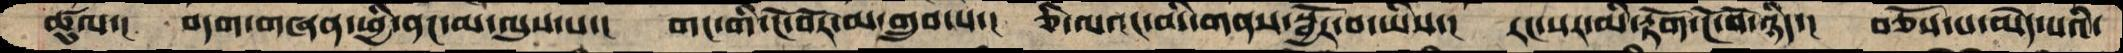ཚུལ་།  བདག་གཞན་ཕྱི་ནང་མ་ལུས་པ་།  གང་གི་ངོ་བོར་མ་གྲུབ་པ་། ཅི་ལའང་མི་གནས་སྦྱོར་བ་ཡིས་།  རང་སར་མི་རྟོག་ངོ་བོ་ཉིད་།  བཅོས་པ་མེད་པའི་
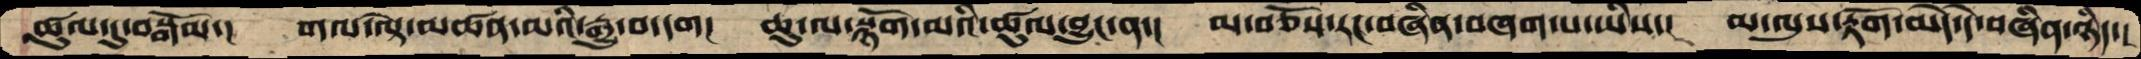ཚུལ་དུ་བསྒོམ་།  གལ་ལྟེ་མཚན་མའི་རྒྱུ་བ་དག།  ཆུ་ལ་སྙོག་མའི་ཚུལ་བྱུང་ན་།  མ་བཅོས་རང་བཞིན་བཞག་པ་ཡིས་།  མ་ལུས་རྟོག་མེད་དེ་བཞིན་ཉིད་།
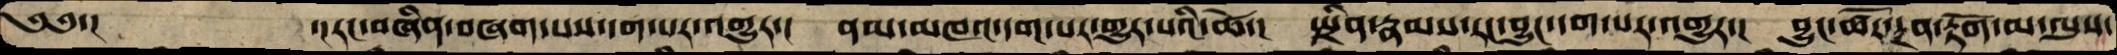༄༅་།         ་།རང་བཞིན་བཞག་པས་དག་པར་འགྱུར་།  ནམ་མཁའ་དག་པར་གྱུར་པའི་ཚེ་།  སྤྲིན་རྣམས་རང་བྱུང་དག་པར་འགྱུར་།  བྱུང་ཚོར་དྲན་རྟོག་མ་ལུས་
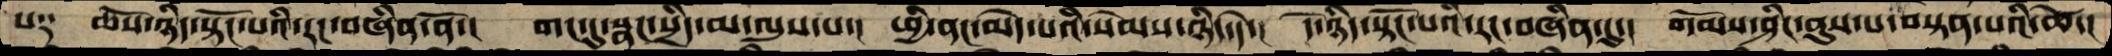པ༑  ཆོས་ཉིད་སྟོང་པའི་རང་བཞིན་ནོ་།  གང་དུ་སྣད་སྲིད་མ་ལུས་པ་།  ཕྱི་ནང་མེད་པའི་སེམས་ཉིད་དེ་།  དེ་ཉིད་སྟོང་པའི་རང་བཞིན་དུ་།  གོམས་ཤིང་ནུས་པ་བསྟན་པའི་ཚེ།
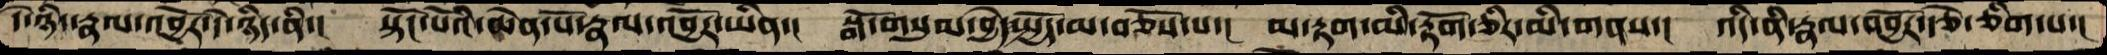དེ་ཉིད་རྣལ་འབྱོར་དེ་ཉིད་ནི་།  སྟོང་པོའི་ཆེན་པོ་རྣལ་འབྱོར་ཡིན་།  སྒོ་གསུམ་བྱེདསྤྱོད་མ་བཅོས་པ་།  མ་རྟག་མི་རྟོག་ཅིར་མི་གནས་།  འདི་ནི་རྣལ་འབྱོར་རྩེ་ཅིག་པ་།
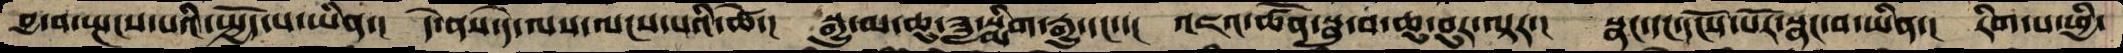བྱ་བ་སྤངས་པའི་སྤྱོད་པ་ཡིན་།  དེ་ནས་དེ་ལས་ལངས་པའི་ཚེ་།  སྒྱུ་མ་ཆུ་ཟླ་སྨིག་རྒྱུ་དང་་།  འཇའ་ཚོན་སྦུ་བ་ཆུ་བུར་ལྟར་།  སྣང་དང་དངོས་པོར་སྣང་བ་ཡིན་།  རིག་པ་ཕྱི་
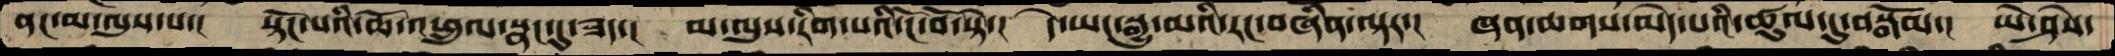ནང་མ་ལུས་པ་།  སྟོང་པའི་ཆོ་འཕྲུལ་སྣང་དུ་ཟད་།  མ་ལུས་རིག་པའི་ངོ་བོ་སྟེ་།  དེ་ཡང་སྒྱུ་མའི་རང་བཞིན་ལྟར་།  ཞན་ཆགས་མེད་པའི་ཚུལ་དུ་བསྒོམ་།  ཡེ་ཤེས་
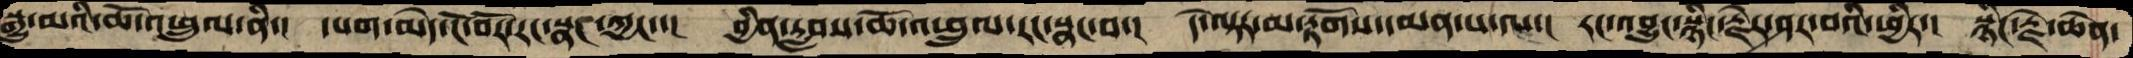སྒྱུ་མའི་ཆོ་འཕྲུལ་ནི་།  དཔག་མེད་ངོ་བོར་རང་སྣང་ཀྱང་་།  བྱིན་རླབས་ཆོ་འཕྲུལ་རང་སྣང་བ་།  དེ་ལྟར་མ་རྟོགས་དམན་པ་ལ་།  རང་འབྱུང་སྙིང་རྗེར་ཤར་བའི་ཕྱིར་།  སྙིང་རྗེ་ཆེན་
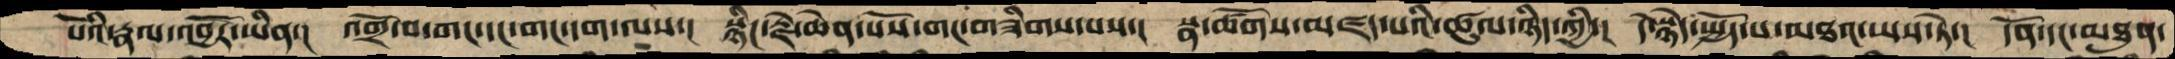པོའི་རྣལ་འབྱོར་ཡིན་།  འགྲོ་བ་གང་དང་གང་དག་ལས་།  སྙིང་རྗེ་ཆེན་པོས་གང་གཟིགས་པས་།  སྣ་ཚོགས་མཛད་པའི་ཚུལ་ཉིད་ཀྱི་།  དེ་སྙེད་སྤྱོད་པ་མཐའ་ཡས་ཏེ་།  དོན་དང་མཐུན་
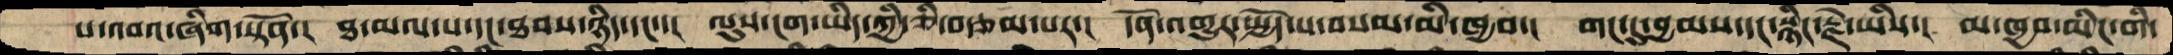པ་འབའ་ཞིག་སྟོན་།  ཐ་མལ་པ་དང་ཐབས་ཉིད་དང་་།  ལུས་ངག་ཡིད་ཀྱི་ཅི་བརྩམ་པར་།  དོན་འགྱུར་སྤྱོད་པ་བསམ་མི་ཁྱབ་།  གང་དུ་བྱམས་དང་སྙིང་རྗེ་ཡིས་།  མ་ཁྱབ་མིང་གི་
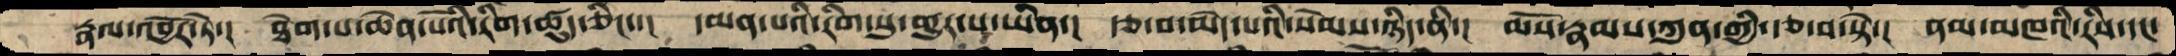རྣལ་འབྱོར་ཏེ་།  ཐེག་པ་ཆེན་པོའི་རིག་ཚུད་ཅིང་་།  དམན་པའི་རིག་སུ་གྱུར་པ་ཡིན་།  རྩ་བ་མེད་པའི་སེམས་ཉིད་ནི་།  ཆོས་རྣམས་ཀུན་གྱི་རྩ་བ་སྟེ་།  ནམ་མཁའི་རིས་དང་
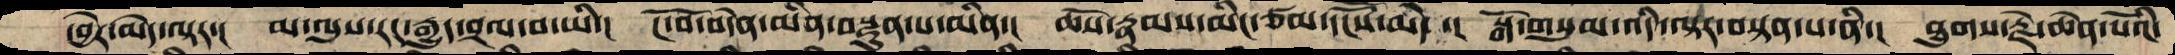དབྱེར་མེད་ལྟར་།  མ་ལུས་རང་རྒྱུད་བྲལ་བ་ཡི་།  ངོ་བོ་བདེན་མིན་བསྫུན་པ་མིན་།  ཆོས་རྣམས་མིང་ཙམ་དངཽས་མེད་།  སྒོ་གསུམ་འདི་ལྟར་བསྟན་པ་ནི་།  ཐུགས་རྗེ་ཆེན་པོའི་
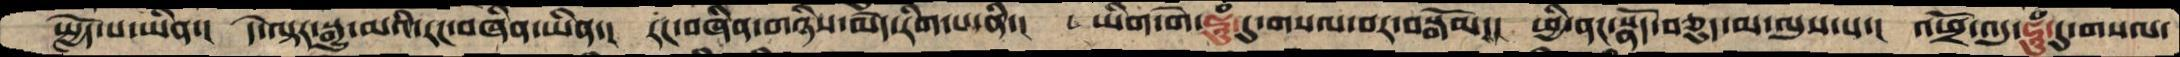སྤྱོད་པ་ཡིན་།  དེ་ལྟར་སྒྱུ་མའི་རང་བཞིན་ཡིན་།  རང་བཞིན་གཉིས་མེད་རིག་པ་ནི་།  ཡིག་གེ་ཧཱུཾ་དུ་གསལ་བར་བསྒོམ་།  ཕྱི་ནང་སྣོད་བཅུད་མ་ལུས་པ་།  འཕྲོ་འདུ་ཧཱུཾ་དུ་གསལ་
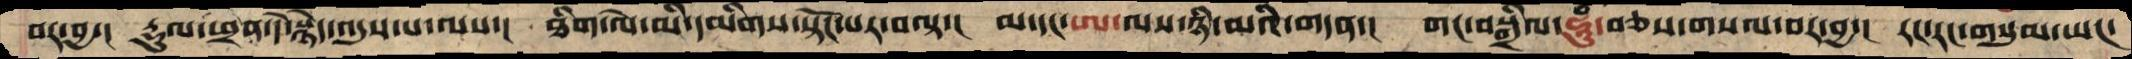བར་བྱས་།  རྡུལ་ཕྲན་དེ་སྙེད་འདུས་པ་ལས་།  ཐིག་ལེ་མི་དམིགས་སྟོང་པར་བལྟ་།  མ་དང་ཨ་ལས་ཉི་མའི་གདན་།  གང་བསྒྲིལ་ཧཱུཾ་བཅས་གསལ་བར་བྱ་།  རང་རང་གསུམ་ཡང་
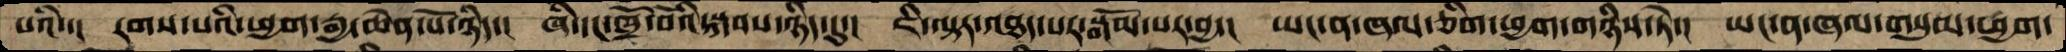པའི་།  རགས་པའི་ཕྱག་རྒྱ་ཆེན་པོ་ཉིད་།  ཞི་དང་ཁྲོ་བོའི་སྐབས་ཉིད་དུ་།  ཇི་ལྟར་འཐད་པར་སྒོམ་པར་བྱ་།  ཡང་ན་ཞལ་ཅིག་ཕྱག་གཉིས་ཏེ་།  ཡང་ན་ཞལ་གསུམ་ཕྱག་
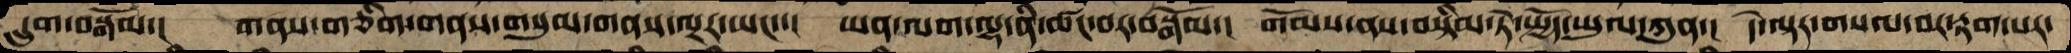དྲུག་བསྒོམ་།   གནས་གཅིག་གནས་གསུམ་གནས་ལྔར་ཡང་་།  ཡན་ལག་ལྷ་ནི་ཚང་བར་བསྒོམ་།  གོམས་ནས་བསྟིམ་ཏེ་སྤྱོད་ཡུལ་ཀུན་།  དེ་ལྟར་གསལ་བར་རྟག་པར་
